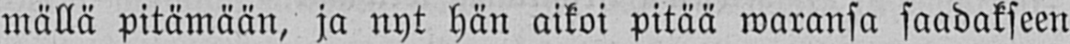mällä pitämään, ja nyt hän aikoi pitää waransa saadakseen
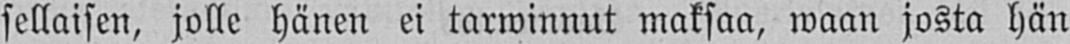sellaisen, jolle hänen ei tarwinnut maksaa, waan josta hän
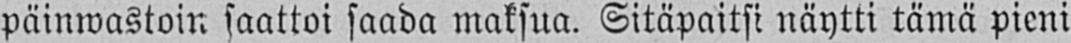päinwastoin saattoi saada maksua. Sitäpaitsi näytti tämä pieni
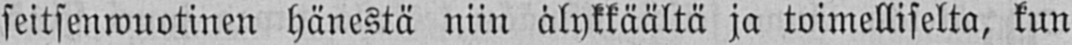seitsenwuotinen hänestä niin älykkäältä ja toimelliselta, kun
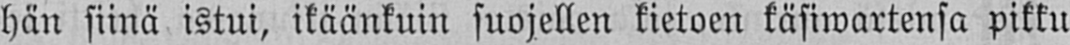hän siinä istui, ikäänkuin suojellen kietoen käsiwartensa pikku
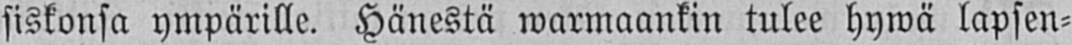siskonsa ympärille. Hänestä warmaankin tulee hywä lapsen-
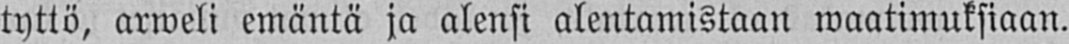tyttö, arweli emäntä ja alensi alentamistaan waatimuksiaan.
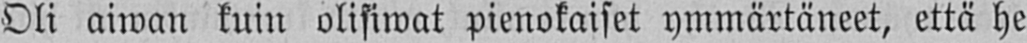Oli aiwan kuin olisiwat pienokaiset ymmärtäneet, että he
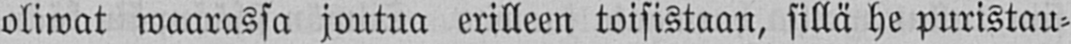oliwat waarassa joutua erilleen toisistaan, sillä he puristau-
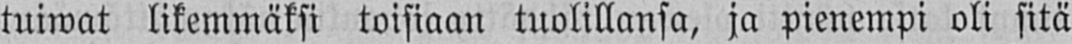tuiwat likemmäksi toisiaan tuolillansa, ja pienempi oli sitä
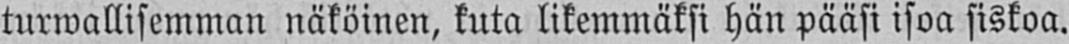turwallisemman näköinen, kuta likemmäksi hän pääsi isoa siskoa.
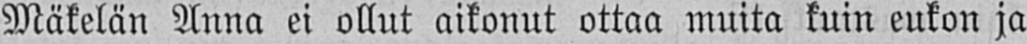Mäkelän Anna ei ollut aikonut ottaa muita kuin eukon ja
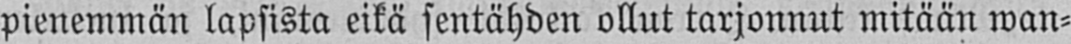pienemmän lapsista eikä sentähden ollut tarjonnut mitään wan-
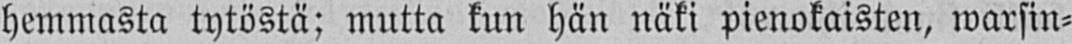hemmasta tytöstä; mutta kun hän näki pienokaisten, warsin-
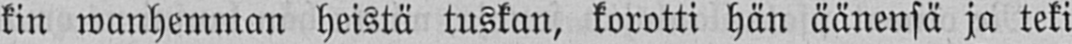kin wanhemman heistä tuskan, korotti hän äänensä ja teki
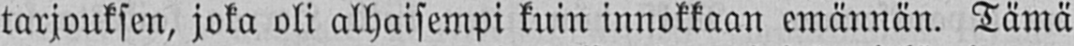tarjouksen, joka oli alhaisempi kuin innokkaan emännän. Tämä
